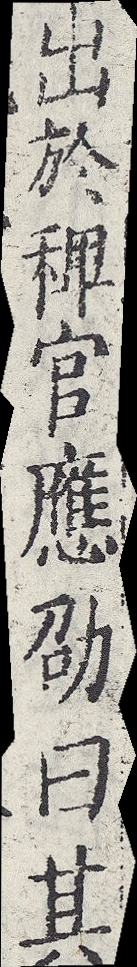出於稗官應劭曰其
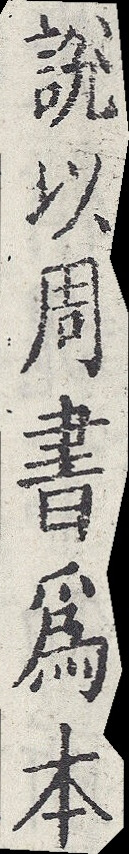說以周書為本
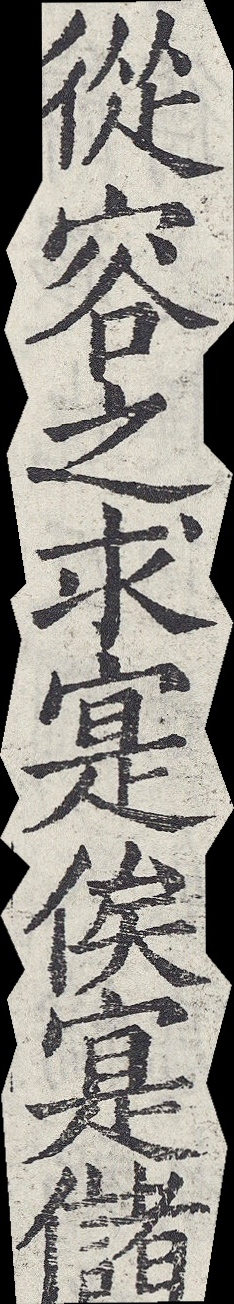從容之求寔俟寔儲
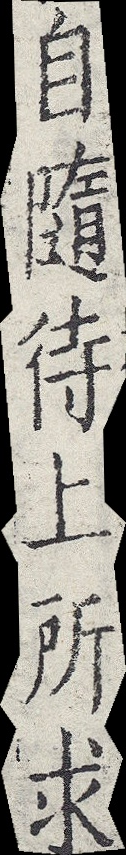自隨待上所求
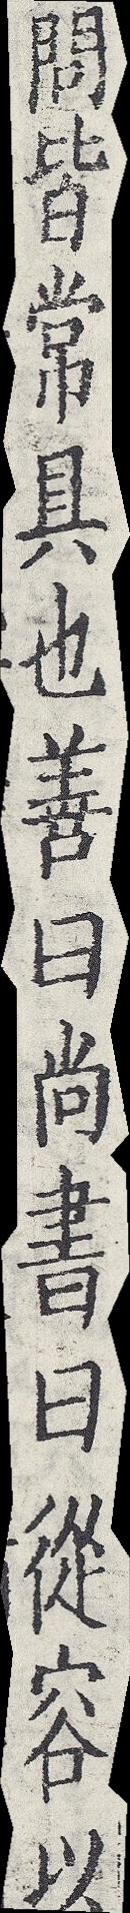問皆常具也善曰尚書曰從容以
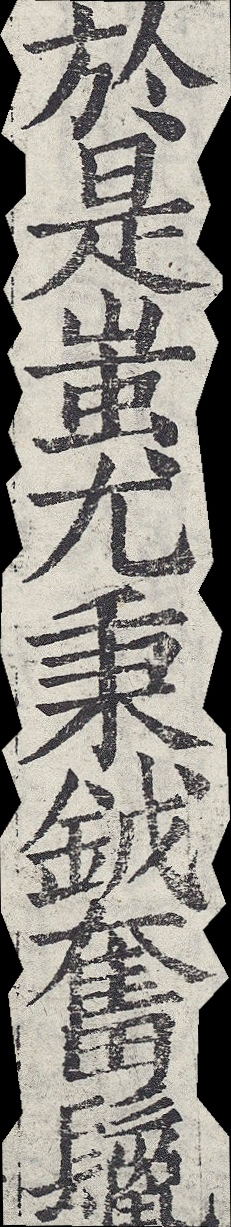於是蚩尤秉鉞奮鬣
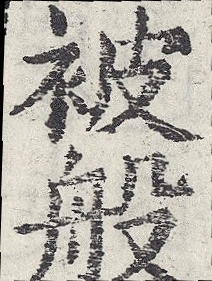被般
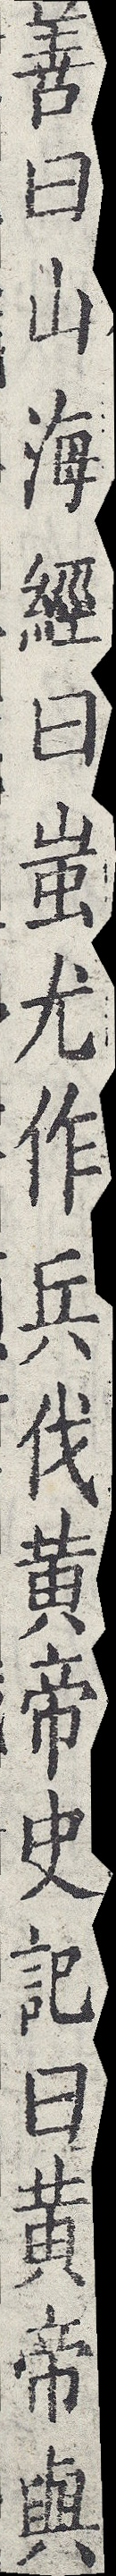善曰山海經曰蚩尤作兵伐黃帝史記曰黃帝與
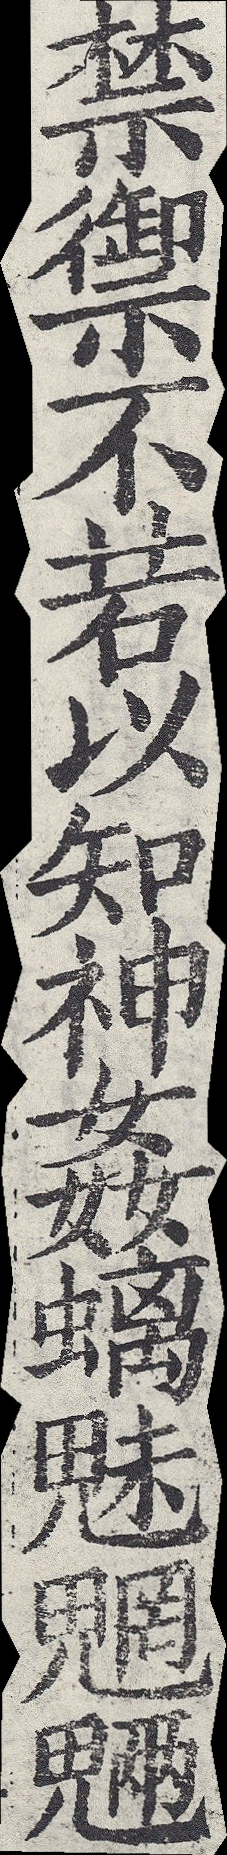禁禦不若以知神姦螭魅魍魎
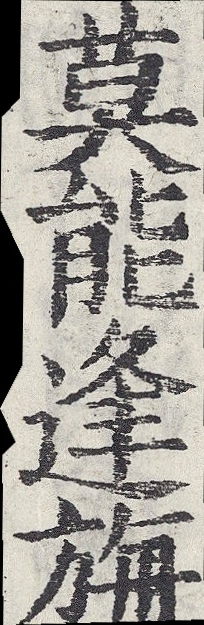莫能逢旃
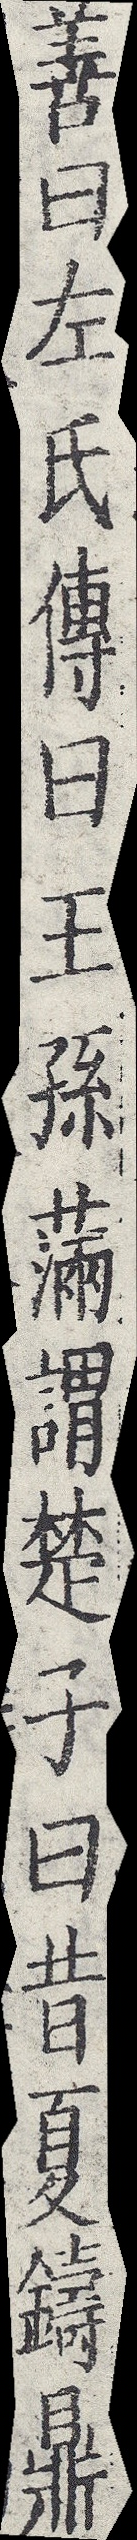善曰左氏傳曰王孫滿謂楚子曰昔夏鑄鼎
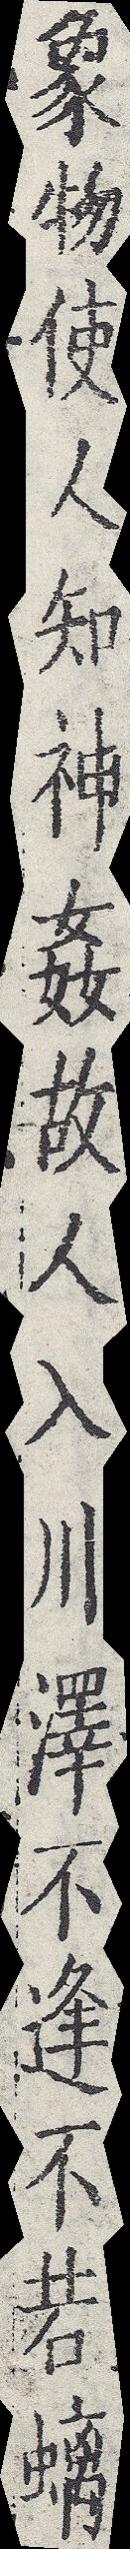象物使人知神姦故人入川澤不逢不若螭
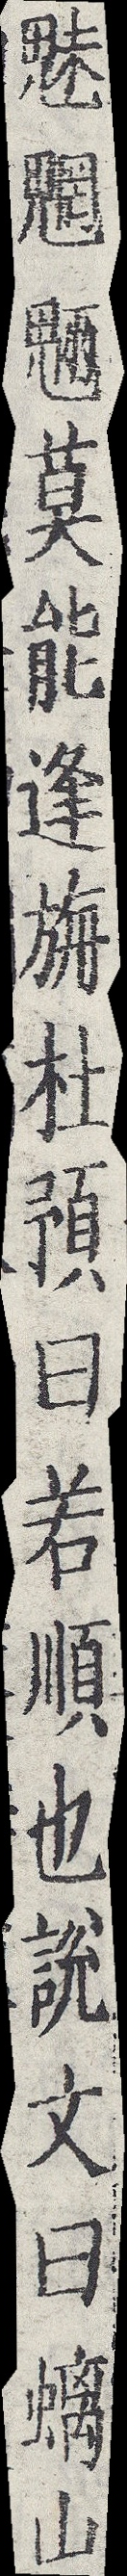魅魍魎莫能逢旃杜預曰若順也說文曰螭山
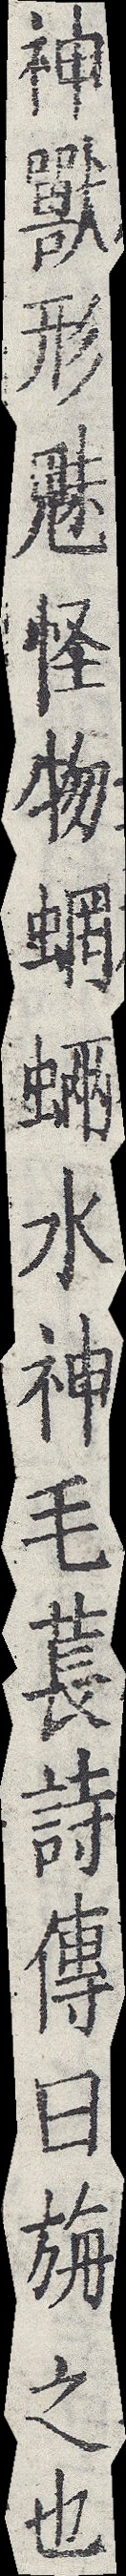神獸形魅怪物蝄蜽水神毛萇詩傳曰旃之也
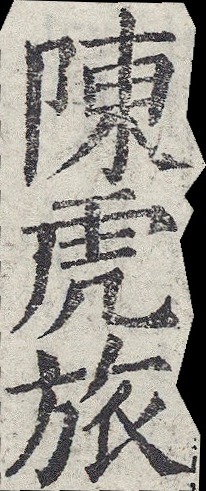陳虎旅
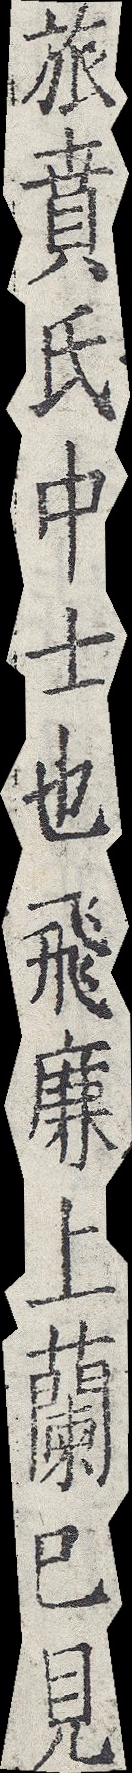旅賁氏中士也飛廉上蘭已見
